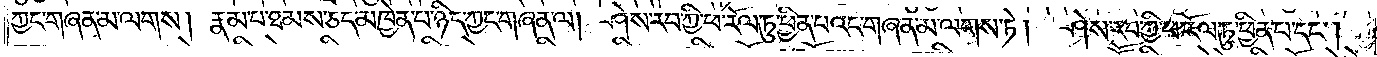ཀྱང་གཞན་མ་ལགས། རྣམ་པ་ཐམས་ཅད་མཁྱེན་པ་ཉིད་ཀྱང་གཞན་ལ། ཤེས་རབ་ཀྱི་ཕ་རོལ་ཏུ་ཕྱིན་པའང་གཞན་མ་ལགས་ཏེ། ཤེས་རབ་ཀྱི་ཕ་རོལ་ཏུ་ཕྱིན་པ་དང༌།
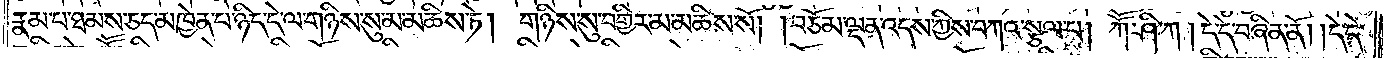རྣམ་པ་ཐམས་ཅད་མཁྱེན་པ་ཉིད་དེ་ལ་གཉིས་སུ་མ་མཆིས་ཏེ། གཉིས་སུ་བགྱིར་མ་མཆིས་སོ། །བཅོམ་ལྡན་འདས་ཀྱིས་བཀའ་སྩལ་པ། ཀཽ་ཤི་ཀ། དེ་དེ་བཞིན་ནོ། །དེ་དེ་
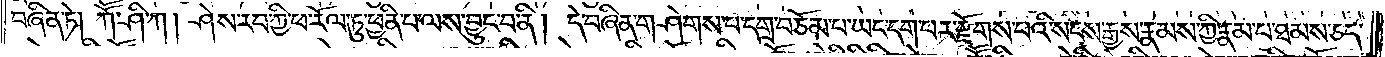བཞིན་ཏེ། ཀཽ་ཤི་ཀ། ཤེས་རབ་ཀྱི་ཕ་རོལ་ཏུ་ཕྱིན་པ་ལས་བྱུང་བ་ནི། དེ་བཞིན་གཤེགས་པ་དགྲ་བཅོམ་པ་ཡང་དག་པར་རྫོགས་པའི་སངས་རྒྱས་རྣམས་ཀྱི་རྣམ་པ་ཐམས་ཅད་
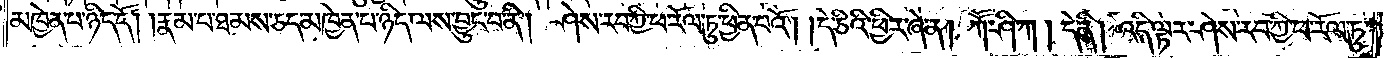མཁྱེན་པ་ཉིད་དོ། །རྣམ་པ་ཐམས་ཅད་མཁྱེན་པ་ཉིད་ལས་བྱུང་བ་ནི། ཤེས་རབ་ཀྱི་ཕ་རོལ་ཏུ་ཕྱིན་པའོ། །དེ་ཅིའི་ཕྱིར་ཞེ་ན། ཀཽ་ཤི་ཀ། དེ་ནི། འདི་ལྟར་ཤེས་རབ་ཀྱི་ཕ་རོལ་ཏུ་
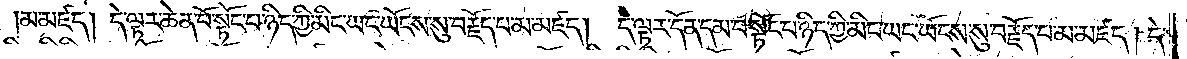མ་མཛད། དེ་ལྟར་ཆེན་པོ་སྟོང་པ་ཉིད་ཀྱི་མིང་ཡང་ཡོངས་སུ་བརྗོད་པ་མ་མཛད། དེ་ལྟར་དོན་དམ་པ་སྟོང་པ་ཉིད་ཀྱི་མིང་ཡང་ཡོངས་སུ་བརྗོད་པ་མ་མཛད། དེ་
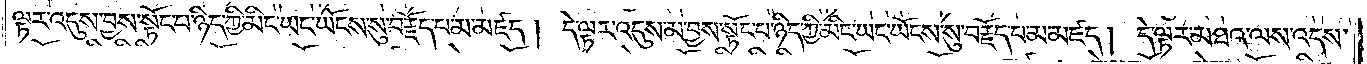ལྟར་འདུས་བྱས་སྟོང་པ་ཉིད་ཀྱི་མིང་ཡང་ཡོངས་སུ་བརྗོད་པ་མ་མཛད། དེ་ལྟར་འདུས་མ་བྱས་སྟོང་པ་ཉིད་ཀྱི་མིང་ཡང་ཡོངས་སུ་བརྗོད་པ་མ་མཛད། དེ་ལྟར་མཐའ་ལས་འདས་
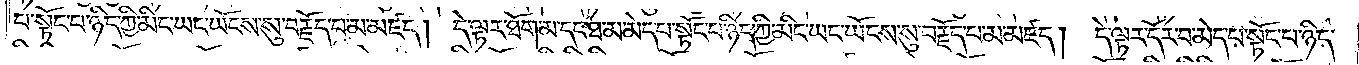པ་སྟོང་པ་ཉིད་ཀྱི་མིང་ཡང་ཡོངས་སུ་བརྗོད་པ་མ་མཛད། དེ་ལྟར་ཐོག་མ་དང་ཐ་མ་མེད་པ་སྟོང་པ་ཉིད་ཀྱི་མིང་ཡང་ཡོངས་སུ་བརྗོད་པ་མ་མཛད། དེ་ལྟར་དོར་བ་མེད་པ་སྟོང་པ་ཉིད་
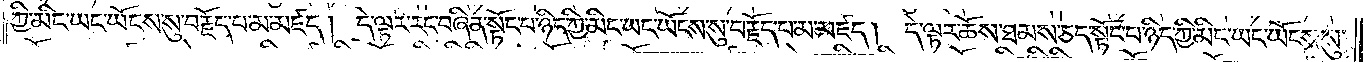ཀྱི་མིང་ཡང་ཡོངས་སུ་བརྗོད་པ་མ་མཛད། དེ་ལྟར་རང་བཞིན་སྟོང་པ་ཉིད་ཀྱི་མིང་ཡང་ཡོངས་སུ་བརྗོད་པ་མ་མཛད། དེ་ལྟར་ཆོས་ཐམས་ཅད་སྟོང་པ་ཉིད་ཀྱི་མིང་ཡང་ཡོངས་སུ་
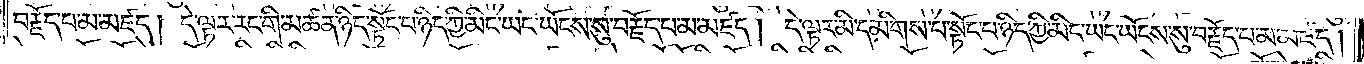བརྗོད་པ་མ་མཛད། དེ་ལྟར་རང་གི་མཚན་ཉིད་སྟོང་པ་ཉིད་ཀྱི་མིང་ཡང་ཡོངས་སུ་བརྗོད་པ་མ་མཛད། དེ་ལྟར་མི་དམིགས་པ་སྟོང་པ་ཉིད་ཀྱི་མིང་ཡང་ཡོངས་སུ་བརྗོད་པ་མ་མཛད།
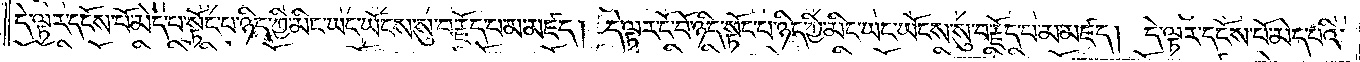དེ་ལྟར་དངོས་པོ་མེད་པའི་སྟོང་པ་ཉིད་ཀྱི་མིང་ཡང་ཡོངས་སུ་བརྗོད་པ་མ་མཛད། དེ་ལྟར་ངོ་བོ་ཉིད་སྟོང་པ་ཉིད་ཀྱི་མིང་ཡང་ཡོངས་སུ་བརྗོད་པ་མ་མཛད། དེ་ལྟར་དངོས་པོ་མེད་པའི་
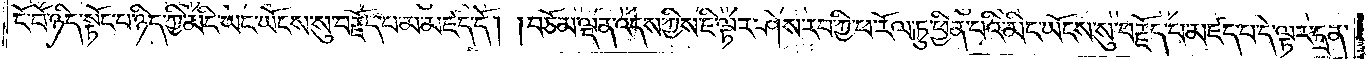ངོ་བོ་ཉིད་སྟོང་པ་ཉིད་ཀྱི་མིང་ཡང་ཡོངས་སུ་བརྗོད་པ་མ་མཛད་དོ། །བཅོམ་ལྡན་འདས་ཀྱིས་ཇི་ལྟར་ཤེས་རབ་ཀྱི་ཕ་རོལ་ཏུ་ཕྱིན་པའི་མིང་ཡོངས་སུ་བརྗོད་པ་མཛད་པ་དེ་ལྟར་དྲན་
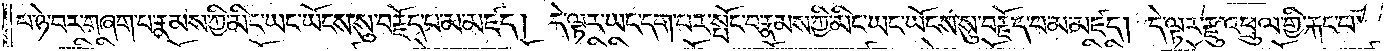པ་ཉེ་བར་གཞག་པ་རྣམས་ཀྱི་མིང་ཡང་ཡོངས་སུ་བརྗོད་པ་མ་མཛད། དེ་ལྟར་ཡང་དག་པར་སྤོང་བ་རྣམས་ཀྱི་མིང་ཡང་ཡོངས་སུ་བརྗོད་པ་མ་མཛད། དེ་ལྟར་རྫུ་འཕྲུལ་གྱི་རྐང་པ་
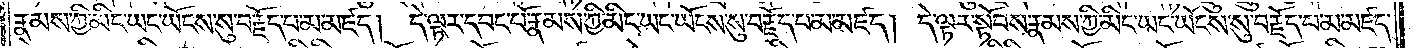རྣམས་ཀྱི་མིང་ཡང་ཡོངས་སུ་བརྗོད་པ་མ་མཛད། དེ་ལྟར་དབང་པོ་རྣམས་ཀྱི་མིང་ཡང་ཡོངས་སུ་བརྗོད་པ་མ་མཛད། དེ་ལྟར་སྟོབས་རྣམས་ཀྱི་མིང་ཡང་ཡོངས་སུ་བརྗོད་པ་མ་མཛད་
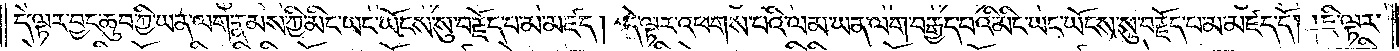དེ་ལྟར་བྱང་ཆུབ་ཀྱི་ཡན་ལག་རྣམས་ཀྱི་མིང་ཡང་ཡོངས་སུ་བརྗོད་པ་མ་མཛད། དེ་ལྟར་འཕགས་པའི་ལམ་ཡན་ལག་བརྒྱད་པའི་མིང་ཡང་ཡོངས་སུ་བརྗོད་པ་མ་མཛད་དོ། །ཇི་ལྟར་
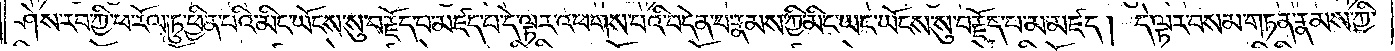ཤེས་རབ་ཀྱི་ཕ་རོལ་ཏུ་ཕྱིན་པའི་མིང་ཡོངས་སུ་བརྗོད་པ་མཛད་པ་དེ་ལྟར་འཕགས་པའི་བདེན་པ་རྣམས་ཀྱི་མིང་ཡང་ཡོངས་སུ་བརྗོད་པ་མ་མཛད། དེ་ལྟར་བསམ་གཏན་རྣམས་ཀྱི་
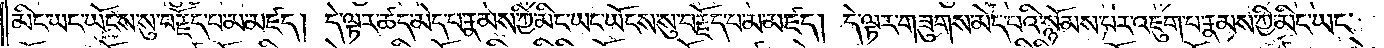མིང་ཡང་ཡོངས་སུ་བརྗོད་པ་མ་མཛད། དེ་ལྟར་ཚད་མེད་པ་རྣམས་ཀྱི་མིང་ཡང་ཡོངས་སུ་བརྗོད་པ་མ་མཛད། དེ་ལྟར་གཟུགས་མེད་པའི་སྙོམས་པར་འཇུག་པ་རྣམས་ཀྱི་མིང་ཡང་
